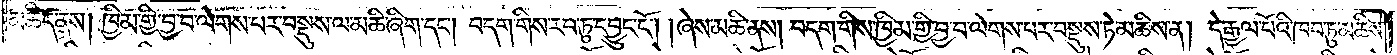མཆིད་ནས། ཁྱིམ་གྱི་བྱ་བ་ལེགས་པར་བསྡུས་ལ་མཆི་ཞིག་དང༌། བདག་གིས་རབ་ཏུ་དབྱུང་ངོ༌། །ཞེས་མཆི་ནས། བདག་གིས་ཁྱིམ་གྱི་བྱ་བ་ལེགས་པར་བསྡུས་ཏེ་མཆིས་ན། དེ་རྒྱལ་པོའི་ཁབ་ཏུ་མཆིས་
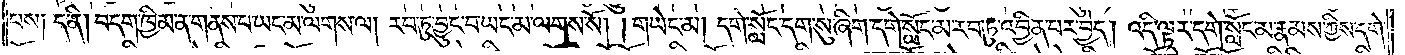པས༑ ད་ནི། བདག་ཁྱིམ་ན་གནས་པ་ཡང་མ་ལགས་ལ། རབ་ཏུ་བྱུང་བ་ཡང་མ་ལགས་སོ། །གཡེང་མ། དགེ་སློང་དག་སུ་ཞིག་དགེ་སློང་མ་རབ་ཏུ་འབྱིན་པར་བྱེད། འདི་ལྟར་དགེ་སློང་མ་རྣམས་ཀྱིས་དགེ་
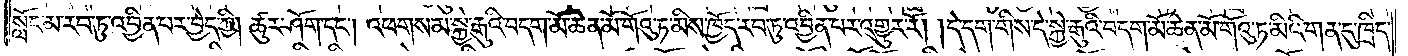སློང་མ་རབ་ཏུ་འབྱིན་པར་བྱེད་ཀྱི། ཚུར་ཤོག་དང༌། འཕགས་མ་སྐྱེ་རྒུའི་བདག་མོ་ཆེན་མོ་གོའུ་ཏ་མིས་ཁྱོད་རབ་ཏུ་འབྱིན་པར་འགྱུར་རོ། །དེ་དག་གིས་དེ་སྐྱེ་རྒུའི་བདག་མོ་ཆེན་མོ་གོའུ་ཏ་མིའི་གན་དུ་ཁྲིད་
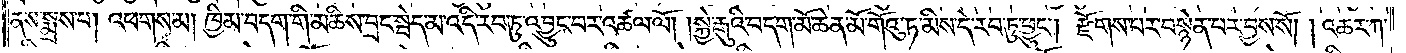ནས་སྨྲས་པ། འཕགས་མ། ཁྱིམ་བདག་གི་མཆིས་བྲང་སྦེད་མ་འདི་རབ་ཏུ་འབྱུང་བར་འཚལ་ལོ། །སྐྱེ་རྒུའི་བདག་མོ་ཆེན་མོ་གོའུ་ཏ་མིས་དེ་རབ་ཏུ་ཕྱུང༌། རྫོགས་པར་བསྙེན་པར་བྱས་སོ། །འཆར་ཀ་
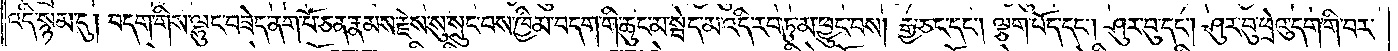འདི་སྙམ་དུ། བདག་གིས་ལྷུང་བཟེད་ནག་པོ་ཅན་རྣམས་རྗེས་སུ་སྲུང་བས་ཁྱིམ་བདག་གི་ཆུང་མ་སྦེད་མ་འདི་རབ་ཏུ་མ་ཕྱུང་བས། རྒྱ་ཅང་དང༌། ལྕག་པོད་དང༌། ཤུར་བུ་དང༌། ཤུར་བུ་ཕྲེའུ་དག་གི་བར་
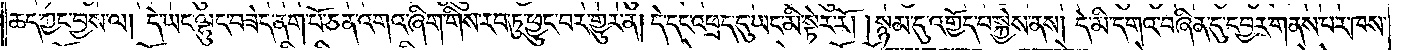ཆད་ཀྱང་བྱས་ལ། དེ་ཡང་ལྷུང་བཟེད་ནག་པོ་ཅན་འགའ་ཞིག་གིས་རབ་ཏུ་ཕྱུང་བར་གྱུར་ན། དེ་དང་འཕྲད་དུ་ཡང་མི་སྟེར་རོ། །སྙམ་དུ་འགྱོད་པ་སྐྱེས་ནས། དེ་མི་དགའ་བཞིན་དུ་དབྱར་གནས་པར་ཁས་
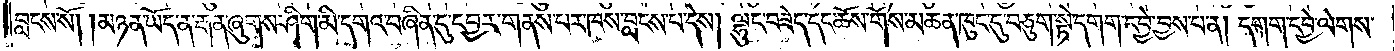བླངས་སོ། །མཉན་ཡོད་ན་རྒན་ཞུགས་ཤིག་མི་དགའ་བཞིན་དུ་དབྱར་གནས་པར་ཁས་བླངས་པ་དེས། ལྷུང་བཟེད་དང་ཆོས་གོས་མཆན་ཁུང་དུ་བཅུག་སྟེ་དགག་དབྱེ་བྱས་པ་ན། དགག་དབྱེ་ལེགས་
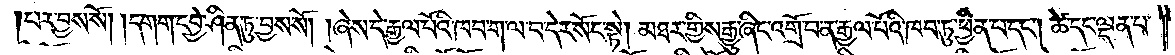པར་བྱས་སོ། །དགག་དབྱེ་ཤིན་ཏུ་བྱས་སོ། །ཞེས་དེ་རྒྱལ་པོའི་ཁབ་ག་ལ་བ་དེར་སོང་སྟེ། མཐར་གྱིས་རྒྱུ་ཞིང་འགྲོ་བ་ན་རྒྱལ་པོའི་ཁབ་ཏུ་ཕྱིན་པ་དང༌། ཚེ་དང་ལྡན་པ་
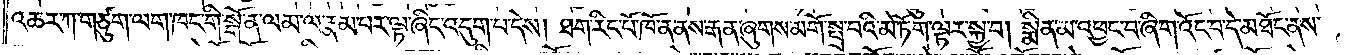འཆར་ཀ་གཙུག་ལག་ཁང་གི་སྒོ་ན་ལམ་ལ་རྣམ་པར་ལྟ་ཞིང་འདུག་པ་དེས། ཐག་རིང་པོ་ཁོ་ན་ནས་རྒན་ཞུགས་མགོ་སྤྲ་བའི་མེ་ཏོག་ལྟར་སྐྱ་བ། སྨིན་མ་འཕྱང་བ་ཞིག་འོང་བ་དེ་མཐོང་ནས་
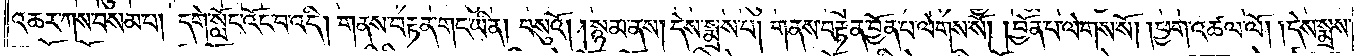འཆར་ཀས་བསམ་པ། དགེ་སློང་འོང་བ་འདི། གནས་བརྟན་གང་ཡིན། བསུའོ། །སྙམ་ནས། དེས་སྨྲས་པ། གནས་བརྟན་བྱོན་པ་ལེགས་སོ། །བྱོན་པ་ལེགས་སོ། །ཕྱག་འཚལ་ལོ། །དེས་སྨྲས་
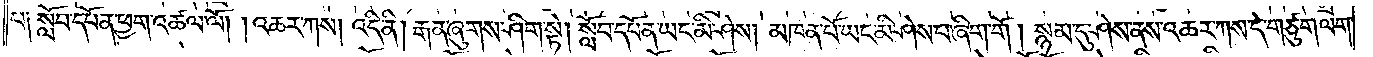པ༑ སློབ་དཔོན་ཕྱག་འཚལ་ལོ། །འཆར་ཀས། འདི་ནི། རྒན་ཞུགས་ཤིག་སྟེ། སློབ་དཔོན་ཡང་མི་ཤེས། མཁན་པོ་ཡང་མི་ཤེས་པ་ཞིག་གོ། །སྙམ་དུ་ཤེས་ནས་འཆར་ཀས་དེ་གཙུག་ལག་
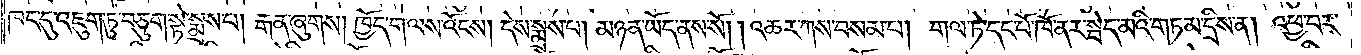ཁང་དུ་འཇུག་ཏུ་བཅུག་སྟེ་སྨྲས་པ། རྒན་ཞུགས། ཁྱོད་ག་ལས་འོངས། དེས་སྨྲས་པ། མཉན་ཡོད་ནས་སོ། །འཆར་ཀས་བསམ་པ། གལ་ཏེ་དང་པོ་ཁོ་ནར་སྦེད་མའི་གཏམ་དྲིས་ན། འཕྱ་བར་
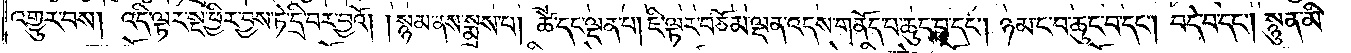འགྱུར་བས། འདི་ལྟར་སྔ་ཕྱིར་བྱས་ཏེ་དྲི་བར་བྱའོ། །སྙམ་ནས་སྨྲས་པ། ཚེ་དང་ལྡན་པ། ཇི་ལྟར་བཅོམ་ལྡན་འདས་གནོད་པ་ཆུང་བ་དང༌། ཉམ་ང་བ་ཆུང་བ་དང༌། བདེ་བ་དང༌། སྙན་མི་
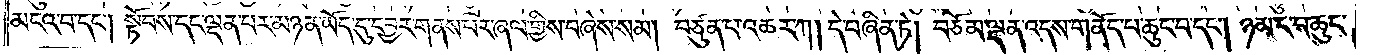མངའ་བ་དང༌། སྟོབས་དང་ལྡན་པར་མཉན་ཡོད་དུ་དབྱར་གནས་པར་ཞལ་གྱིས་བཞེས་སམ། བཙུན་པ་འཆར་ཀ། དེ་བཞིན་ཏེ། བཅོམ་ལྡན་འདས་གནོད་བ་ཆུང་བ་དང༌། ཉམ་ང་བ་ཆུང་
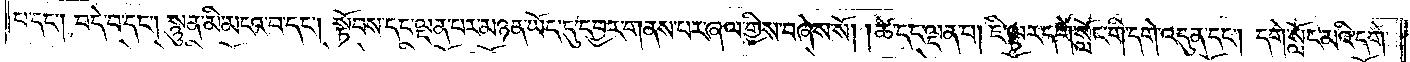པ་དང༌། བདེ་བ་དང༌། སྙུན་མི་མངའ་བ་དང༌། སྟོབས་དང་ལྡན་པར་མཉན་ཡོད་དུ་དབྱར་གནས་པར་ཞལ་གྱིས་བཞེས་སོ། །ཚེ་དང་ལྡན་པ། ཇི་ལྟར་དགེ་སློང་གི་དགེ་འདུན་དང༌། དགེ་སློང་མའི་དགེ་
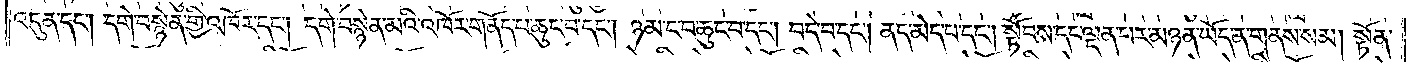འདུན་དང༌། དགེ་བསྙེན་གྱི་འཁོར་དང༌། དགེ་བསྙེན་མའི་འཁོར་གནོད་པ་ཆུང་བ་དང༌། ཉམ་ང་བ་ཆུང་བ་དང༌། བདེ་བ་དང༌། ནད་མེད་པ་དང༌། སྟོབས་དང་ལྡན་པར་མཉན་ཡོད་ན་གནས་སམ། སྟོན་
